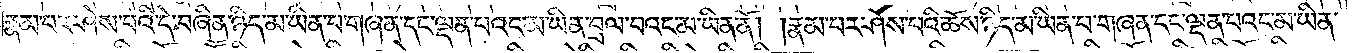རྣམ་པར་ཤེས་པའི་དེ་བཞིན་ཉིད་མ་ཡིན་པ་གཞན་དང་ལྡན་པའང་མ་ཡིན་བྲལ་བའང་མ་ཡིན་ནོ། །རྣམ་པར་ཤེས་པའི་ཆོས་ཉིད་མ་ཡིན་པ་གཞན་དང་ལྡན་པའང་མ་ཡིན་
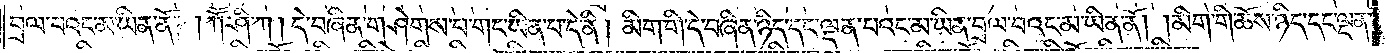བྲལ་བའང་མ་ཡིན་ནོ། །ཀཽ་ཤི་ཀ །དེ་བཞིན་གཤེགས་པ་གང་ཡིན་པ་དེ་ནི། མིག་གི་དེ་བཞིན་ཉིད་དང་ལྡན་པའང་མ་ཡིན་བྲལ་བའང་མ་ཡིན་ནོ། །མིག་གི་ཆོས་ཉིད་དང་ལྡན་
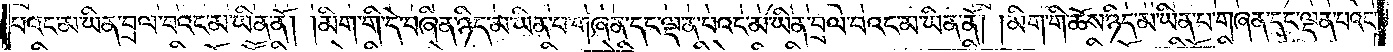པའང་མ་ཡིན་བྲལ་བའང་མ་ཡིན་ནོ། །མིག་གི་དེ་བཞིན་ཉིད་མ་ཡིན་པ་གཞན་དང་ལྡན་པའང་མ་ཡིན་བྲལ་བའང་མ་ཡིན་ནོ། །མིག་གི་ཆོས་ཉིད་མ་ཡིན་པ་གཞན་དང་ལྡན་པའང་
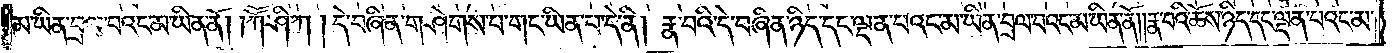མ་ཡིན་བྲལ་བའང་མ་ཡིན་ནོ། །ཀཽ་ཤི་ཀ །དེ་བཞིན་གཤེགས་པ་གང་ཡིན་པ་དེ་ནི། རྣ་བའི་དེ་བཞིན་ཉིད་དང་ལྡན་པའང་མ་ཡིན་བྲལ་བའང་མ་ཡིན་ནོ། །རྣ་བའི་ཆོས་ཉིད་དང་ལྡན་པའང་མ་
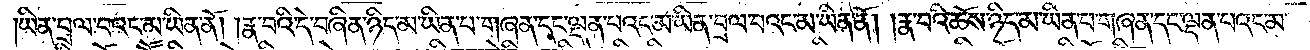ཡིན་བྲལ་བའང་མ་ཡིན་ནོ། །རྣ་བའི་དེ་བཞིན་ཉིད་མ་ཡིན་པ་གཞན་དང་ལྡན་པའང་མ་ཡིན་བྲལ་བའང་མ་ཡིན་ནོ། །རྣ་བའི་ཆོས་ཉིད་མ་ཡིན་པ་གཞན་དང་ལྡན་པའང་མ་
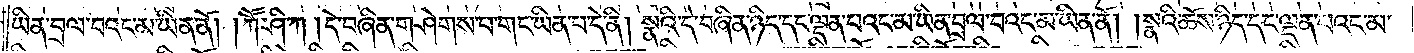ཡིན་བྲལ་བའང་མ་ཡིན་ནོ། །ཀཽ་ཤི་ཀ །དེ་བཞིན་གཤེགས་པ་གང་ཡིན་པ་དེ་ནི། སྣའི་དེ་བཞིན་ཉིད་དང་ལྡན་པའང་མ་ཡིན་བྲལ་བའང་མ་ཡིན་ནོ། །སྣའི་ཆོས་ཉིད་དང་ལྡན་པའང་མ་
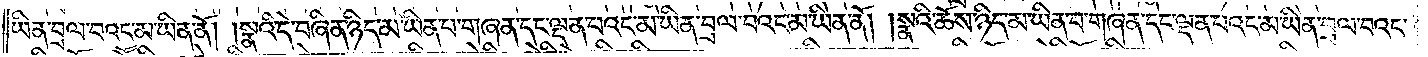ཡིན་བྲལ་བའང་མ་ཡིན་ནོ། །སྣའི་དེ་བཞིན་ཉིད་མ་ཡིན་པ་གཞན་དང་ལྡན་པའང་མ་ཡིན་བྲལ་བའང་མ་ཡིན་ནོ། །སྣའི་ཆོས་ཉིད་མ་ཡིན་པ་གཞན་དང་ལྡན་པའང་མ་ཡིན་བྲལ་བའང་
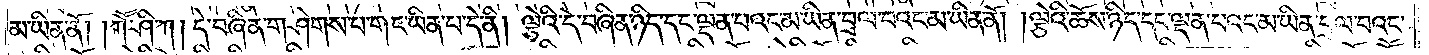མ་ཡིན་ནོ། །ཀཽ་ཤི་ཀ །དེ་བཞིན་གཤེགས་པ་གང་ཡིན་པ་དེ་ནི། ལྕེའི་དེ་བཞིན་ཉིད་དང་ལྡན་པའང་མ་ཡིན་བྲལ་བའང་མ་ཡིན་ནོ། །ལྕེའི་ཆོས་ཉིད་དང་ལྡན་པའང་མ་ཡིན་བྲལ་བའང་
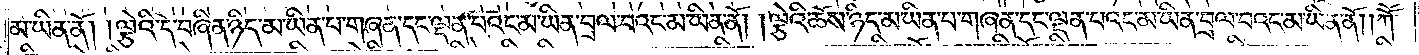མ་ཡིན་ནོ། །ལྕེའི་དེ་བཞིན་ཉིད་མ་ཡིན་པ་གཞན་དང་ལྡན་པའང་མ་ཡིན་བྲལ་བའང་མ་ཡིན་ནོ། །ལྕེའི་ཆོས་ཉིད་མ་ཡིན་པ་གཞན་དང་ལྡན་པའང་མ་ཡིན་བྲལ་བའང་མ་ཡིན་ནོ། །ཀཽ་
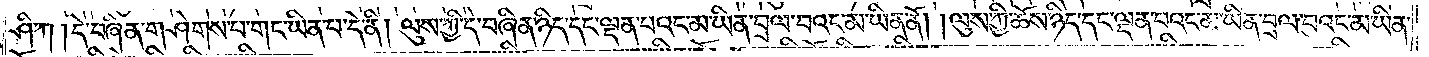ཤི་ཀ །དེ་བཞིན་གཤེགས་པ་གང་ཡིན་པ་དེ་ནི། ལུས་ཀྱི་དེ་བཞིན་ཉིད་དང་ལྡན་པའང་མ་ཡིན་བྲལ་བའང་མ་ཡིན་ནོ། །ལུས་ཀྱི་ཆོས་ཉིད་དང་ལྡན་པའང་མ་ཡིན་བྲལ་བའང་མ་ཡིན་
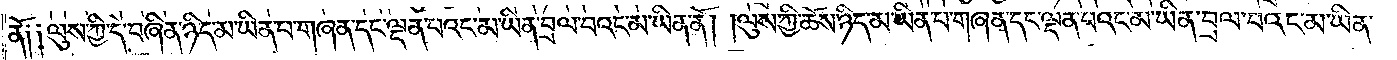ནོ༑༑ལུས་ཀྱི་དེ་བཞིན་ཉིད་མ་ཡིན་པ་གཞན་དང་ལྡན་པའང་མ་ཡིན་བྲལ་བའང་མ་ཡིན་ནོ། །ལུས་ཀྱི་ཆོས་ཉིད་མ་ཡིན་པ་གཞན་དང་ལྡན་པའང་མ་ཡིན་བྲལ་བའང་མ་ཡིན་
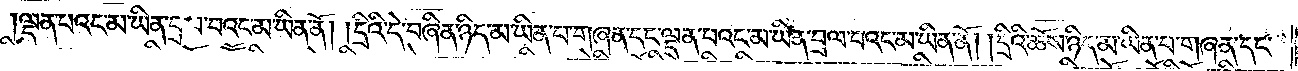ལྡན་པའང་མ་ཡིན་བྲལ་བའང་མ་ཡིན་ནོ། །དྲིའི་དེ་བཞིན་ཉིད་མ་ཡིན་པ་གཞན་དང་ལྡན་པའང་མ་ཡིན་བྲལ་བའང་མ་ཡིན་ནོ། །དྲིའི་ཆོས་ཉིད་མ་ཡིན་པ་གཞན་དང་
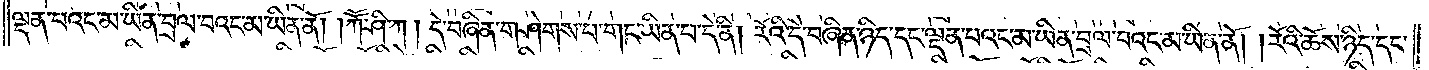ལྡན་པའང་མ་ཡིན་བྲལ་བའང་མ་ཡིན་ནོ། །ཀཽ་ཤི་ཀ །དེ་བཞིན་གཤེགས་པ་གང་ཡིན་པ་དེ་ནི། རོའི་དེ་བཞིན་ཉིད་དང་ལྡན་པའང་མ་ཡིན་བྲལ་བའང་མ་ཡིན་ནོ། །རོའི་ཆོས་ཉིད་དང་
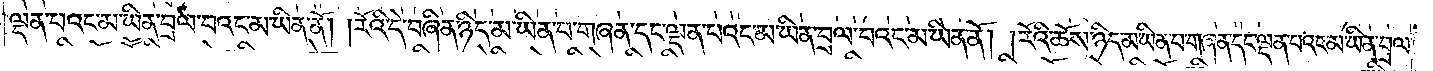ལྡན་པའང་མ་ཡིན་བྲལ་བའང་མ་ཡིན་ནོ། །རོའི་དེ་བཞིན་ཉིད་མ་ཡིན་པ་གཞན་དང་ལྡན་པའང་མ་ཡིན་བྲལ་བའང་མ་ཡིན་ནོ། ། རོའི་ཆོས་ཉིད་མ་ཡིན་པ་གཞན་དང་ལྡན་པའང་མ་ཡིན་བྲལ་
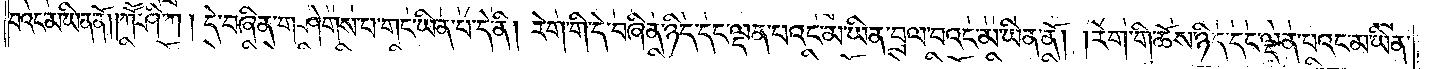བའང་མ་ཡིན་ནོ། །ཀཽ་ཤི་ཀ །དེ་བཞིན་གཤེགས་པ་གང་ཡིན་པ་དེ་ནི། རེག་གི་དེ་བཞིན་ཉིད་དང་ལྡན་པའང་མ་ཡིན་བྲལ་བའང་མ་ཡིན་ནོ། །རིག་གི་ཆོས་ཉིད་དང་ལྡན་པའང་མ་ཡིན་
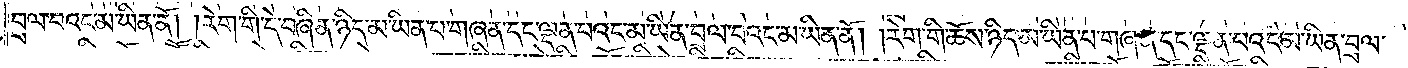བྲལ་བའང་མ་ཡིན་ནོ། །རེག་གི་དེ་བཞིན་ཉིད་མ་ཡིན་པ་གཞན་དང་ལྡན་པའང་མ་ཡིན་བྲལ་བའང་མ་ཡིན་ནོ། །རེག་གི་ཆོས་ཉིད་མ་ཡིན་པ་གཞན་དང་ལྡན་པའང་མ་ཡིན་བྲལ་
